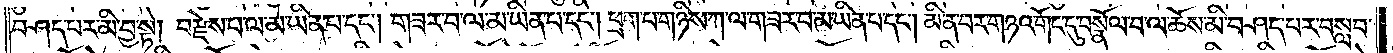བཤད་པར་མི་བྱ་སྟེ། བརྫེས་པ་ལ་མ་ཡིན་པ་དང༌། གཟར་བ་ལ་མ་ཡིན་པ་དང༌། ཕྲག་པ་གཉིས་ཀ་ལ་གཟར་བ་མ་ཡིན་པ་དང༌། མི་ན་བར་གཉའ་གོང་དུ་བསྣོལ་བ་ལ་ཆོས་མི་བཤད་པར་བསླབ་
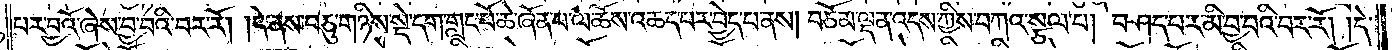པར་བྱའོ་ཞེས་བྱ་བའི་བར་རོ། །དེ་ནས་བཅུ་གཉིས་སྡེ་དག་གླང་པོ་ཆེ་ཞོན་པ་ལ་ཆོས་འཆད་པར་བྱེད་པ་ནས། བཅོམ་ལྡན་འདས་ཀྱིས་བཀའ་སྩལ་པ། བཤད་པར་མི་བྱ་བའི་བར་རོ། །དེ་
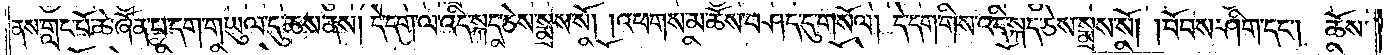ནས་གླང་པོ་ཆེ་ཞོན་པ་དག་གཡུལ་དུ་ཆས་ནས། དེ་དག་ལ་འདི་སྐད་ཅེས་སྨྲས་སོ། །འཕགས་མ་ཆོས་བཤད་དུ་གསོལ། དེ་དག་གིས་འདི་སྐད་ཅེས་སྨྲས་སོ། །བོབས་ཤིག་དང༌། ཆོས་
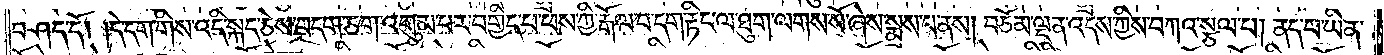བཤད་དོ། །དེ་དག་གིས་འདི་སྐད་ཅེས་བདག་ཅག་འགུམ་པར་བགྱིད་པ་ཕས་ཀྱི་རྒོལ་བ་དག་རྟིང་ལ་ཐུག་ལགས་སོ་ཞེས་སྨྲས་པ་ནས། བཅོམ་ལྡན་འདས་ཀྱིས་བཀའ་སྩལ་པ། ནད་པ་ཡིན་
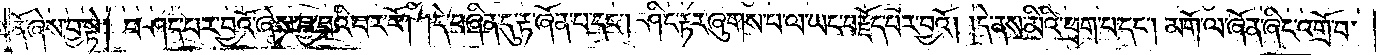ནོ་ཞེས་བྱ་སྟེ། བཤད་པར་བྱའོ་ཞེས་བྱ་བའི་བར་རོ། །དེ་བཞིན་དུ་རྟ་ཞོན་པ་དང༌། ཤིང་རྟར་ཞུགས་པ་ལ་ཡང་བརྗོད་པར་བྱའོ། །དེ་ནས་མིའི་ཕྲག་པ་དང༌། མགོ་ལ་ཞོན་ཞིང་འགྲོ་བ་
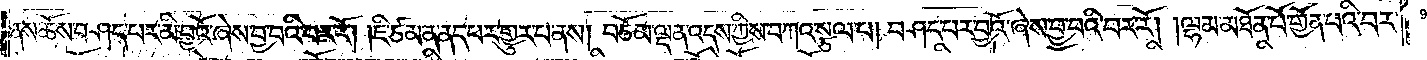ནས་ཆོས་བཤད་པར་མི་བྱའོ་ཞེས་བྱ་བའི་བར་རོ། །ཇི་ཙམ་ན་ནད་པར་གྱུར་པ་ནས། བཅོམ་ལྡན་འདས་ཀྱིས་བཀའ་སྩལ་པ། བཤད་པར་བྱའོ་ཞེས་བྱ་བའི་བར་རོ། །ལྷམ་མཐོན་པོ་གྱོན་པའི་བར་
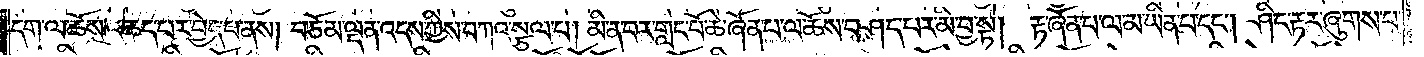དག་ལ་ཆོས་འཆད་པར་བྱེད་པ་ནས། བཅོམ་ལྡན་འདས་ཀྱིས་བཀའ་སྩལ་པ། མི་ན་བར་གླང་པོ་ཆེ་ཞོན་པ་ལ་ཆོས་བཤད་པར་མི་བྱ་སྟེ། རྟ་ཞོན་པ་ལ་མ་ཡིན་པ་དང༌། ཤིང་རྟར་ཞུགས་པ་
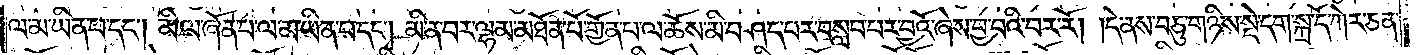ལ་མ་ཡིན་པ་དང༌། མི་ལ་ཞོན་པ་ལ་མ་ཡིན་པ་དང༌། མི་ན་བར་ལྷམ་མཐོན་པོ་གྱོན་པ་ལ་ཆོས་མི་བཤད་པར་བསླབ་པར་བྱའོ་ཞེས་བྱ་བའི་བར་རོ། །དེ་ནས་བཅུ་གཉིས་སྡེ་དག་སྐྲ་དོ་ཀེར་ཅན་
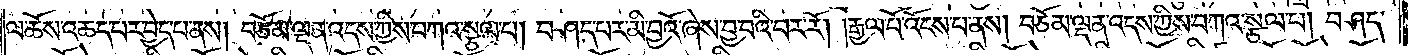ལ་ཆོས་འཆད་པར་བྱེད་པ་ནས། བཅོམ་ལྡན་འདས་ཀྱིས་བཀའ་སྩལ་པ། བཤད་པར་མི་བྱའོ་ཞེས་བྱ་བའི་བར་རོ། །རྒྱལ་པོ་འོངས་པ་ནས། བཅོམ་ལྡན་འདས་ཀྱིས་བཀའ་སྩལ་པ། བཤད་
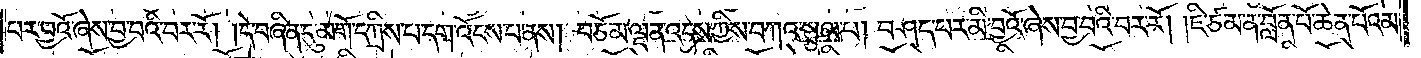པར་བྱའོ་ཞེས་བྱ་བའི་བར་རོ། །དེ་བཞིན་དུ་མགོ་དཀྲིས་པ་དག་འོངས་པ་ནས། བཅོམ་ལྡན་འདས་ཀྱིས་བཀའ་སྩལ་པ། བཤད་པར་མི་བྱའོ་ཞེས་བྱ་བའི་བར་རོ། །ཇི་ཙམ་ན་བློན་པོ་ཆེན་པོའམ་
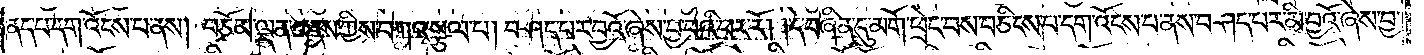ནད་པ་དག་འོངས་པ་ནས། བཅོམ་ལྡན་འདས་ཀྱིས་བཀའ་སྩལ་པ། བཤད་པར་བྱའོ་ཞེས་བྱ་བའི་བར་རོ། །དེ་བཞིན་དུ་མགོ་ཕྲེང་བས་བཅིངས་པ་དག་འོངས་པ་ནས་བཤད་པར་མི་བྱའོ་ཞེས་བྱ་
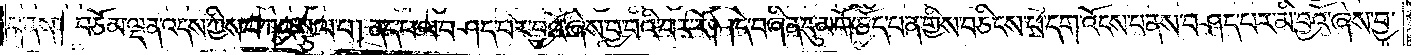བ་ནས། བཅོམ་ལྡན་འདས་ཀྱིས་བཀའ་སྩལ་པ། ནད་པ་ལ་བཤད་པར་བྱའོ་ཞེས་བྱ་བའི་བར་རོ། །དེ་བཞིན་དུ་མགོ་ཅོད་པན་གྱིས་བཅིངས་པ་དག་འོངས་པ་ནས་བཤད་པར་མི་བྱའོ་ཞེས་བྱ་
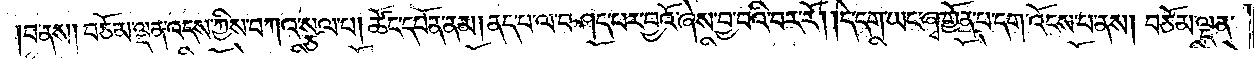བ་ནས། བཅོམ་ལྡན་འདས་ཀྱིས་བཀའ་སྩལ་པ། ཚོང་དཔོན་ནམ། ནད་པ་ལ་བཤད་པར་བྱའོ་ཞེས་བྱ་བའི་བར་རོ། །དེ་དག་ཡང་ཞྭ་གྱོན་པ་དག་འོངས་པ་ནས། བཅོམ་ལྡན་
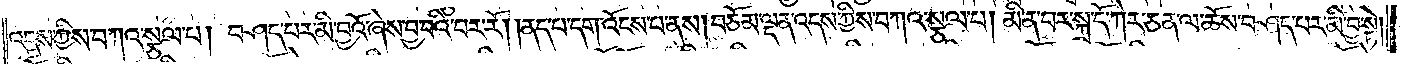འདས་ཀྱིས་བཀའ་སྩལ་པ། བཤད་པར་མི་བྱའོ་ཞེས་བྱ་བའི་བར་རོ། །ནད་པ་དག་འོངས་པ་ནས། བཅོམ་ལྡན་འདས་ཀྱིས་བཀའ་སྩལ་པ། མི་ན་བར་སྐྲ་དོ་ཀེར་ཅན་ལ་ཆོས་བཤད་པར་མི་བྱ་སྟེ།
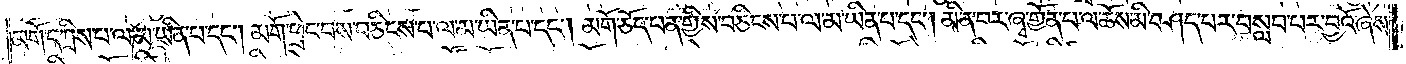མགོ་དཀྲིས་པ་ལ་མ་ཡིན་པ་དང༌། མགོ་ཕྲེང་བས་བཅིངས་པ་ལ་མ་ཡིན་པ་དང༌། མགོ་ཅོད་པན་གྱིས་བཅིངས་པ་ལ་མ་ཡིན་པ་དང༌། མི་ན་བར་ཞྭ་གྱོན་པ་ལ་ཆོས་མི་བཤད་པར་བསླབ་པར་བྱའོ་ཞེས་
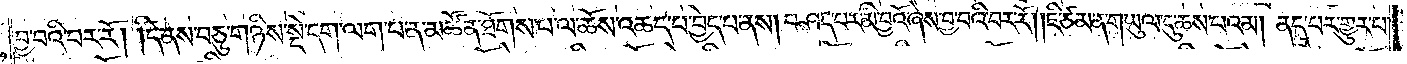བྱ་བའི་བར་རོ། །དེ་ནས་བཅུ་གཉིས་སྡེ་དག་ལག་པ་ན་མཚོན་ཐོགས་པ་ལ་ཆོས་འཆད་པར་བྱེད་པ་ནས། བཤད་པར་མི་བྱའོ་ཞེས་བྱ་བའི་བར་རོ། །ཇི་ཙམ་ན་གཡུལ་དུ་ཆས་པའམ། ནད་པར་གྱུར་པ་
